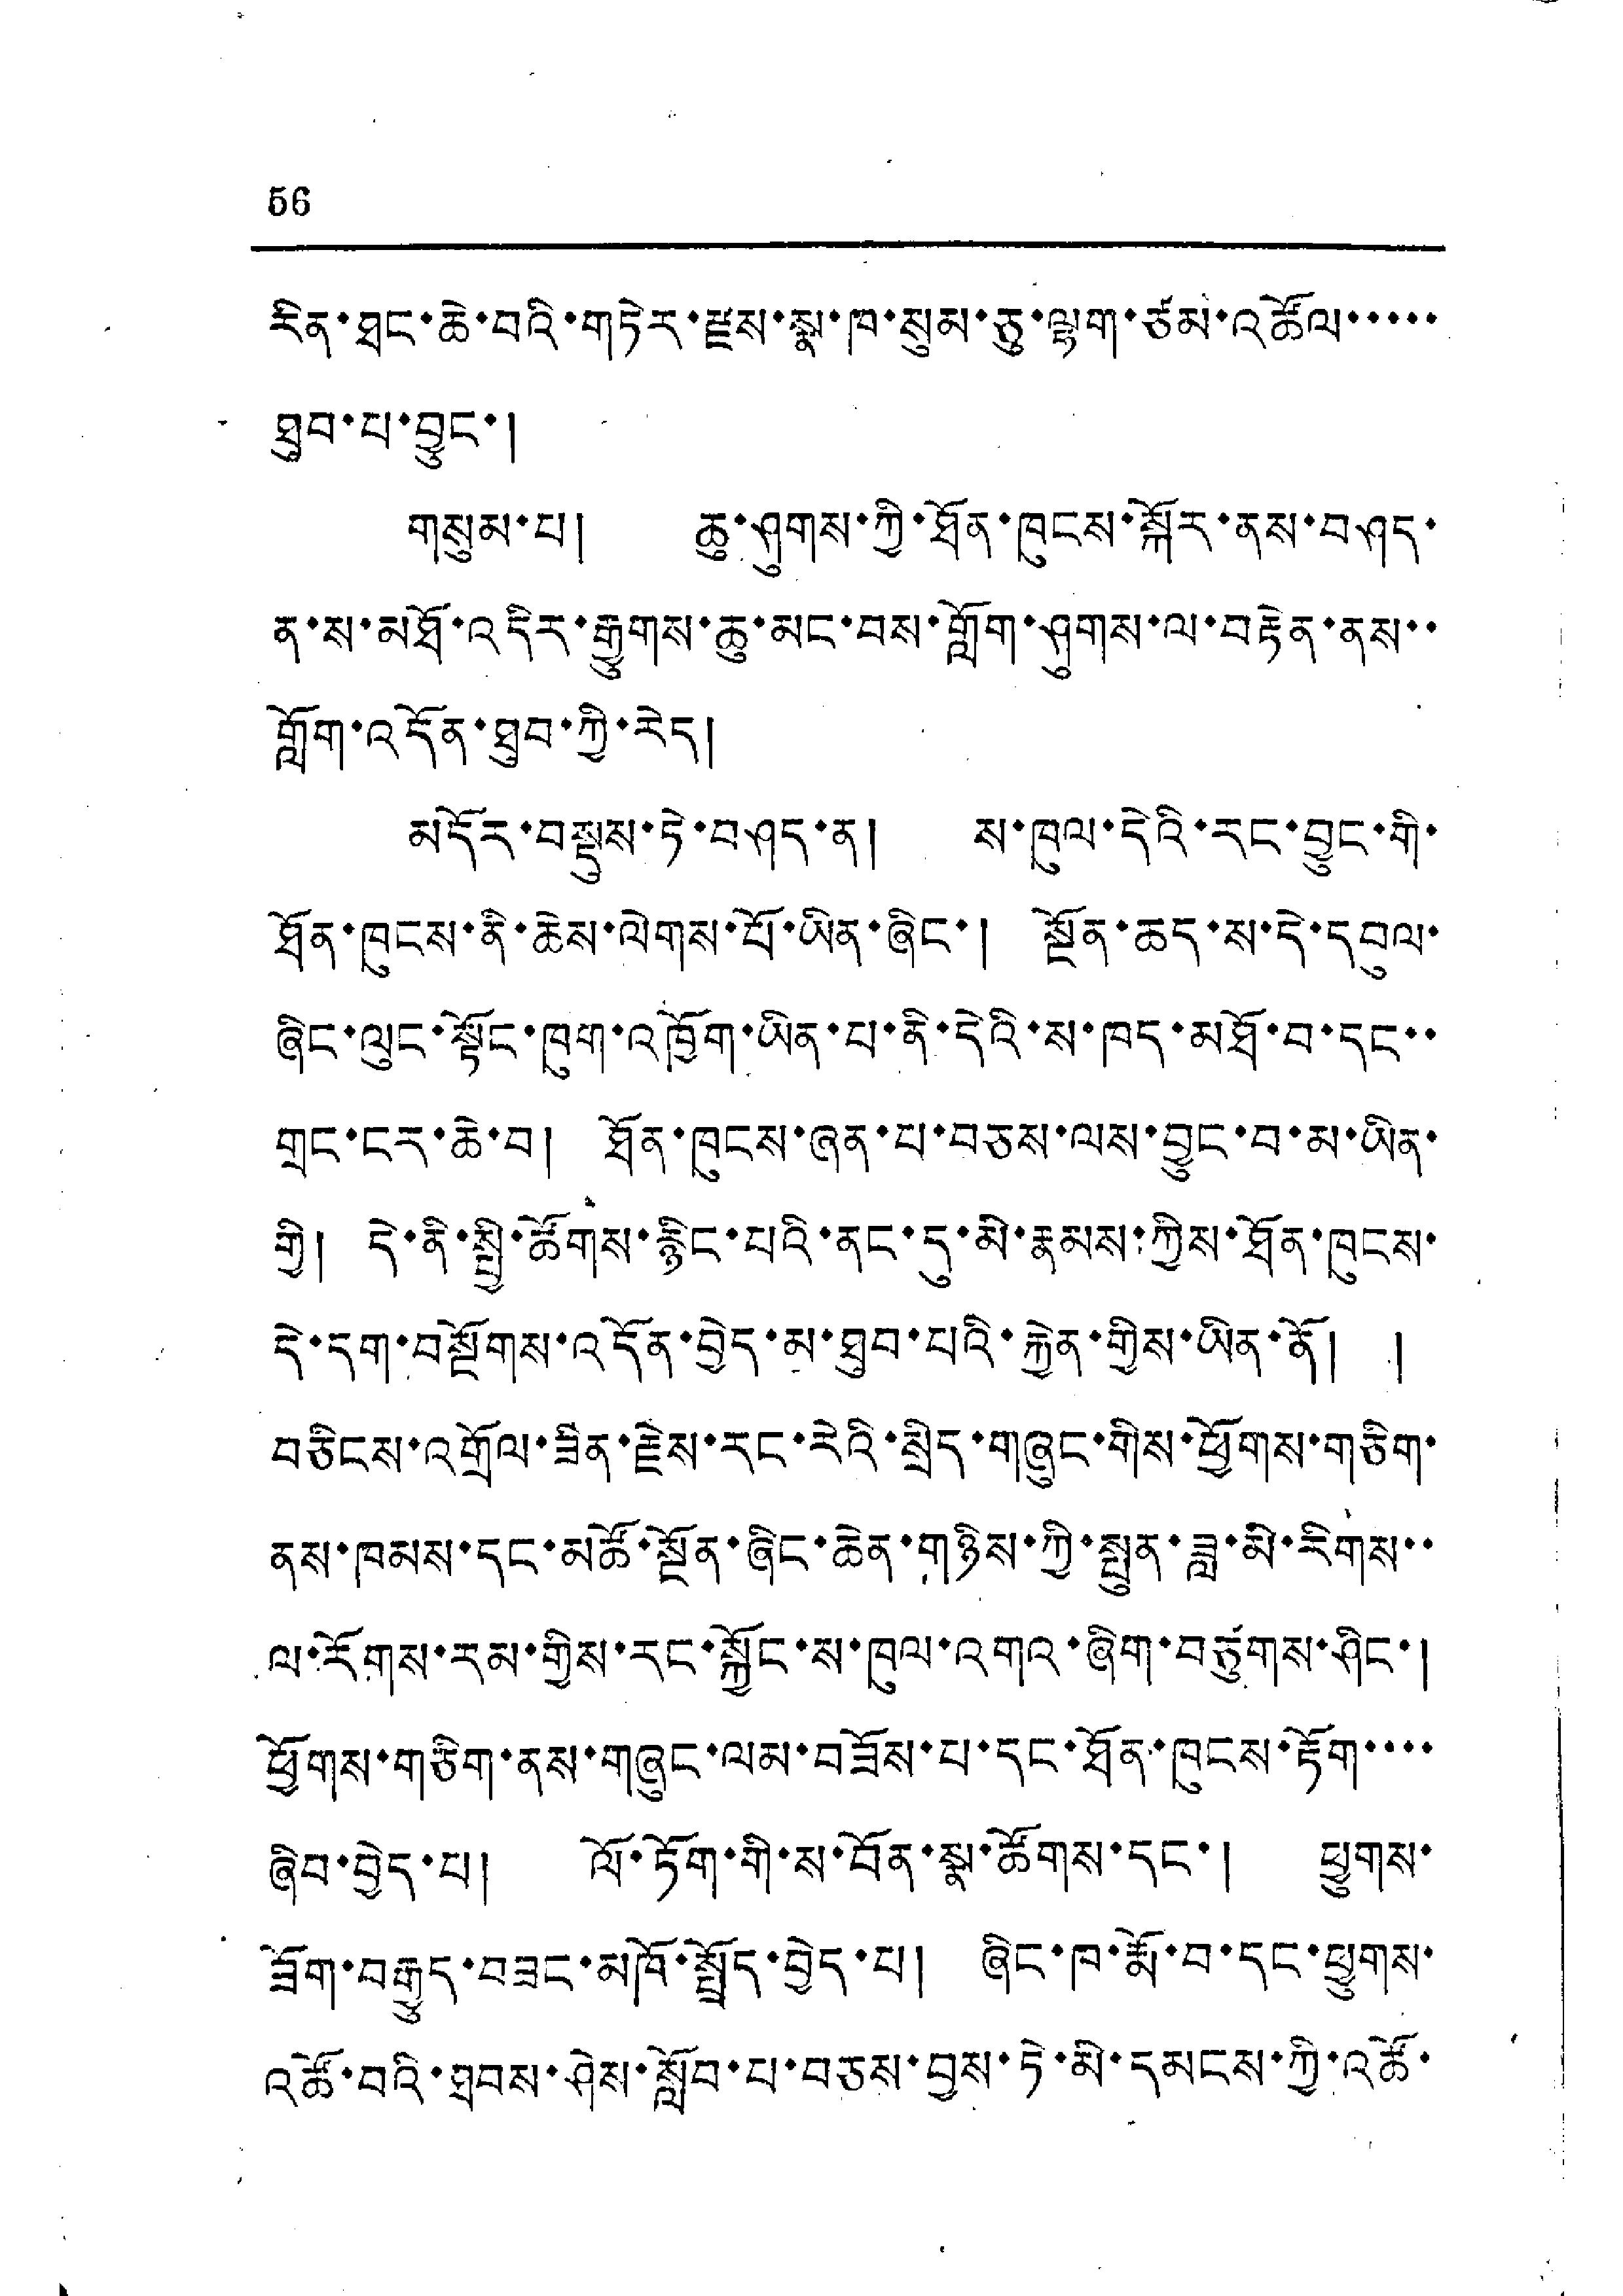56
རིན་ཐང་ཆེ་བའི་གཏེར་རྫས་སྣ་ཁ་སུམ་ཅུ་ལྷག་ཙམ་འཚོལ་་་་་
ཐུབ་པ་བྱུང་།
གསུམ་པ། ཆུ་ཤུགས་ཀྱི་ཐོན་ཁུངས་སྐོར་ནས་བཤད་
ན་ས་མཐོ་འདིར་རྒྱུགས་ཆུ་མང་བས་གློག་ཤུགས་ལ་བརྟེན་ནས་་
གློག་འདོན་ཐུབ་ཀྱི་རེད།
མདོར་བསྡུས་ཏེ་བཤད་ན། ས་ཁུལ་དེའི་རང་བྱུང་གི་
ཐོན་ཁུངས་ནི་ཆེས་ལེགས་པོ་ཡིན་ཞིང་། སྔོན་ཆད་ས་དེ་དབུལ་
ཞིང་ལུང་སྟོང་ཁུག་འཁྱོག་ཡིན་པ་ནི་དེའི་ས་ཁད་མཐོ་བ་དང་་
གྲང་ངར་ཆེ་བ། ཐོན་ཁུངས་ཞན་པ་བཅས་ལས་བྱུང་བ་མ་ཡིན་
གྱི། དེ་ནི་སྤྱི་ཚོགས་རྙིང་པའི་ནང་དུ་མི་རྣམས་ཀྱིས་ཐོན་ཁུངས་
དེ་དག་བསྔོགས་འདོན་བྱེད་མ་ཐུབ་པའི་རྐྱེན་གྱིས་ཡིན་ནོ། །
བཅིངས་འགྲོལ་ཟིན་རྗེས་རང་རེའི་སྲིད་གཞུང་གིས་ཕྱོགས་གཅིག་
ནས་ཁམས་དང་མཚོ་སྔོན་ཞིང་ཆེན་གཉིས་ཀྱི་སྤུན་ཟླ་མི་རིགས་་
ལ་རོགས་རམ་གྱིས་རང་སྐྱོང་ས་ཁལ་འགའ་ཞིག་བཙུགས་ཤིང་།
ཕྱོགས་གཅིག་ནས་གཞུང་ལམ་བཟོས་པ་དང་ཐོན་ཁུངས་རྟོག་་་་
ཞིབ་བྱེད་པ། ལོ་ཏོག་གི་ས་བོན་སྣ་ཚོགས་དང་། ཕྱུགས་
ཟོག་བརྒྱུད་བཟང་མཁོ་སྤྲོད་བྱེད་པ། ཞིང་ཁ་རྨོ་བ་དང་ཕྱུགས་
འཚོ་བའི་ཐབས་ཤེས་སློབ་པ་བཅས་བྱས་ཏེ་མི་དམངས་ཀྱི་འཚོ་
